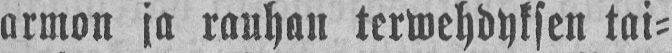armon ja rauhan terwehdyksen tai-
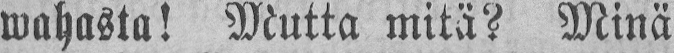wahasta! Mutta mitä? Minä
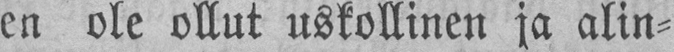en ole ollut uskollinen ja alin-
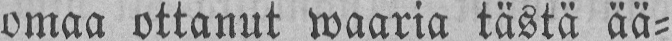omaa ottanut waaria tästä ää-
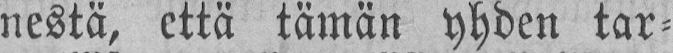nestä, että tämän yhden tar-
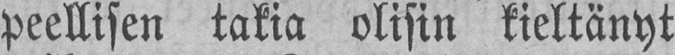peellisen takia olisin kieltänyt
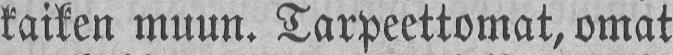kaiken muun. Tarpeettomat, omat
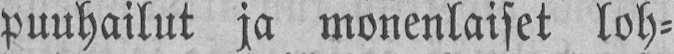puuhailut ja monenlaiset loh-
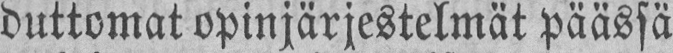duttomat opinjärjestelmät päässä
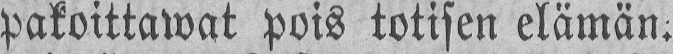pakoittawat pois totisen elämän.
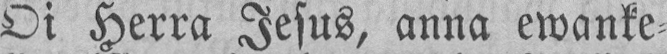Oi Herra Jesus, anna ewanke-
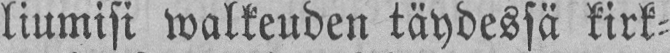liumisi walkeuden täydessä kirk-
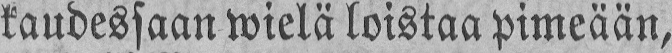kaudessaan wielä loistaa pimeään,
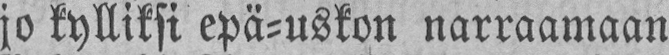jo kylliksi epä-uskon narraamaan
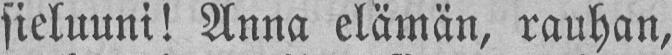sieluuni! Anna elämän, rauhan,
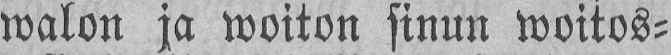walon ja woiton sinun woitos-
